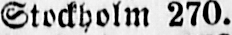Stockholm 270.
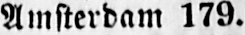Amsterdam 179.
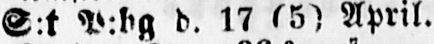S:t P:bg d. 17 (5) April.
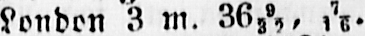London 3 m. 36 9/32, 7/16.
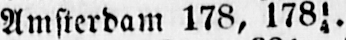Amsterdam 178, l78¼.
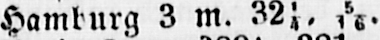Hamburg 3 m. 32¼, 5/16.
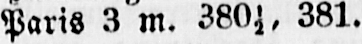Paris 3 m. 380½, 381.
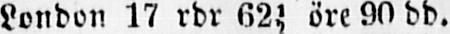London 17 rdr 62½ öre 90 dd.
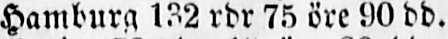Hamburg 132 rdr 75 öre 90 dd.
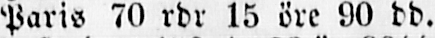Paris 70 rdr 15 öre 90 dd.
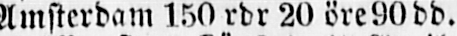Amsterdam 150 rdr 20 öre90dd.
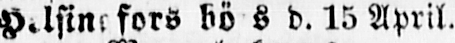Helsingfors bö s d. 15 April.
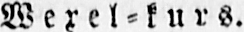Wexel - kurs.
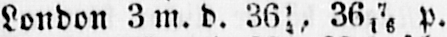London 3 m. d. 36¼, 36 7/16 p.
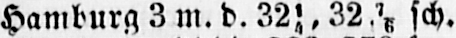Hamburg 3 m.d. 32¼, 32 7/16 sch.
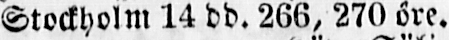Stockholm 14 dd. 266, 270 öre.
